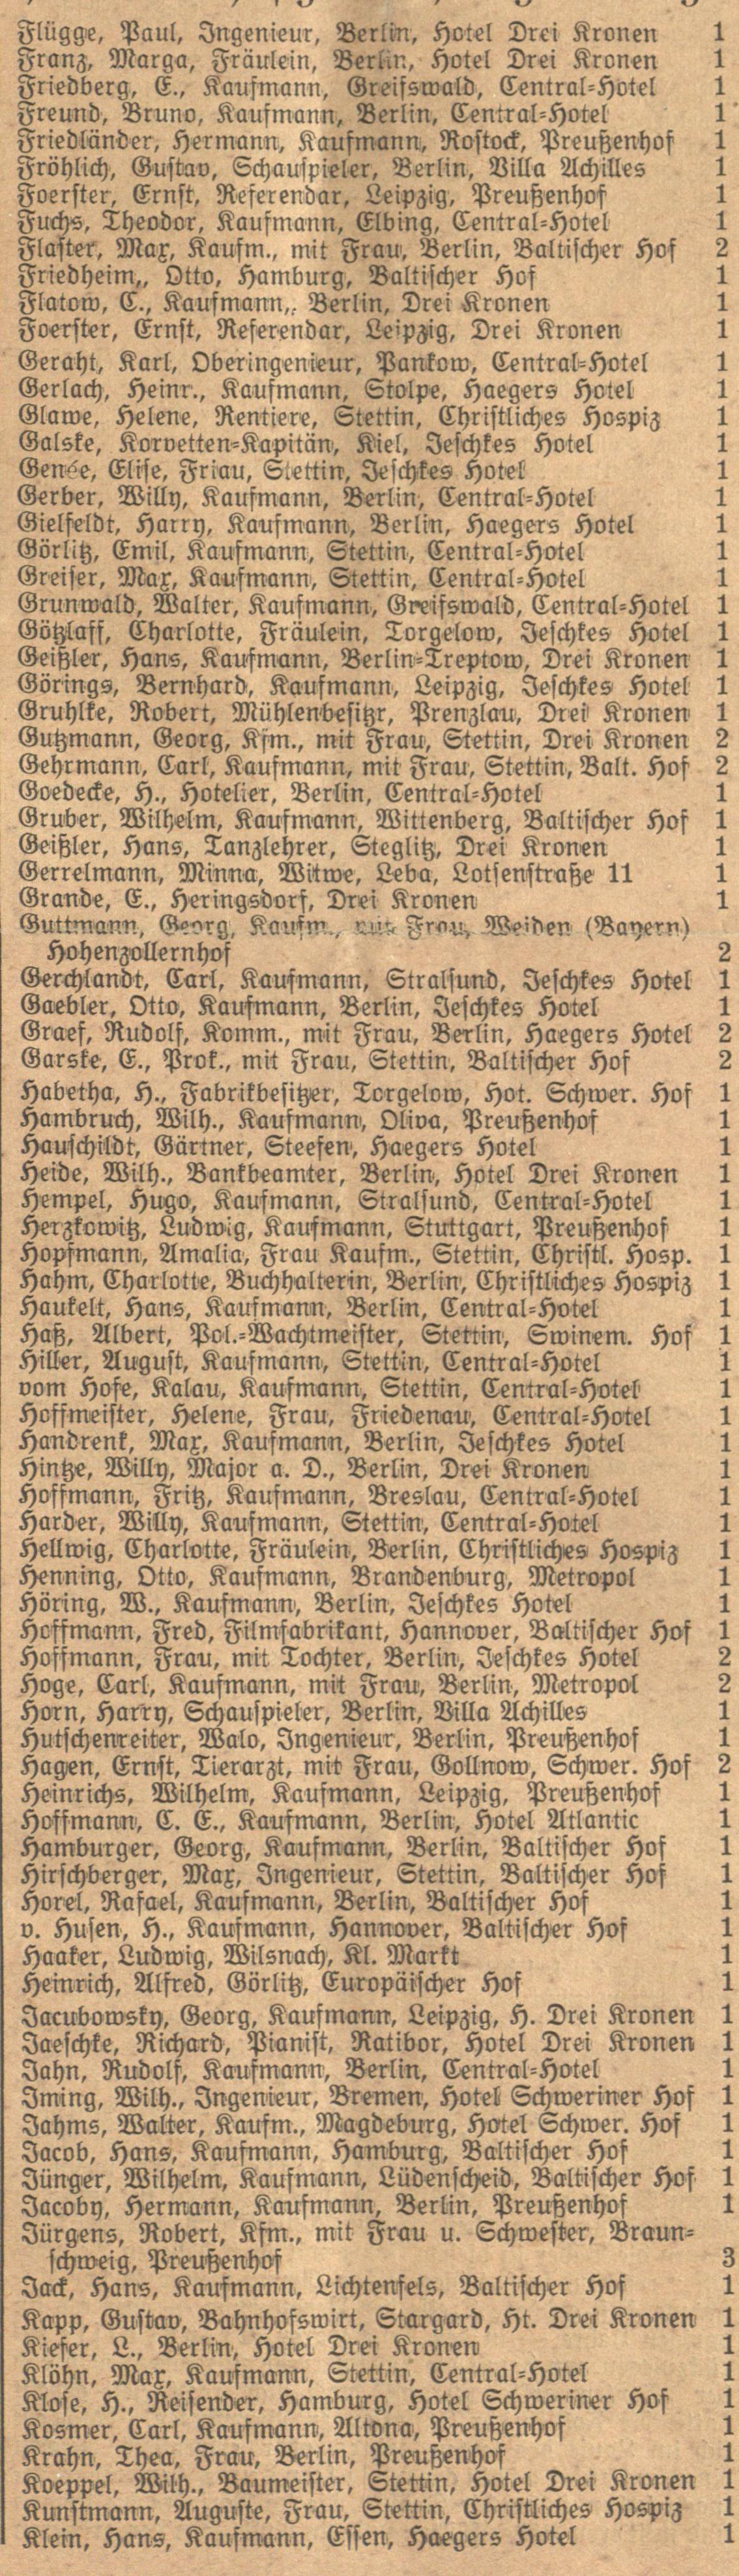Flügge, Paul, Ingenieur, Berlin, Hotel Drei Kronen | 1
Franz, Marga, Fräulein, Berlin, Hotel Drei Kronen | 1
Friedberg, E., Kaufmann, Greifswald, Central=Hotel | 1
Freund, Bruno, Kaufmann, Berlin, Central=Hotel | 1
Friedländer, Hermann, Kaufmann, Rostock, Preußenhof | 1
Fröhlich, Gustav, Schauspieler, Berlin, Villa Achilles | 1
Foerster, Ernst, Referendar, Leipzig, Preußenhof | 1
Fuchs, Theodor, Kaufmann, Elbing, Central=Hotel | 1
Flaster, Max, Kaufm., mit Frau, Berlin, Baltischer Hof | 2
Friedheim,, Otto, Hamburg, Baltischer Hof | 1
Flatow, C., Kaufmann,, Berlin, Drei Kronen | 1
Foerster, Ernst, Referendar, Leipzig, Drei Kronen | 1
Geraht, Karl, Oberingenieur, Pankow, Central=Hotel | 1
Gerlach, Heinr., Kaufmann, Stolpe, Haegers Hotel | 1
Glawe, Helene, Rentiere, Stettin, Christliches Hospiz | 1
Galske, Korvetten=Kapitän, Kiel, Jeschkes Hotel | 1
Genée, Elise, Friau, Stettin, Jeschkes Hotel | 1
Gerber, Willy, Kaufmann, Berlin, Central=Hotel | 1
Gielfeldt, Harry, Kaufmann, Berlin, Haegers Hotel | 1
Görlitz, Emil, Kaufmann, Stettin, Central=Hotel | 1
Greiser, Max, Kaufmann, Stettin, Central=Hotel | 1
Grunwald, Walter, Kaufmann, Greifswald, Central=Hotel | 1
Götzlaff, Charlotte, Fräulein, Torgelow, Jeschkes Hotel | 1
Geißler, Hans, Kaufmann, Berlin=Treptow, Drei Kronen | 1
Görings, Bernhard, Kaufmann, Leipzig, Jeschkes Hotel | 1
Gruhlke, Robert, Mühlenbesitzr, Prenzlau, Drei Kronen | 1
Gutzmann, Georg, Kfm., mit Frau, Stettin, Drei Kronen | 2
Gehrmann, Carl, Kaufmann, mit Frau, Stettin, Balt. Hof | 2
Goedecke, H., Hotelier, Berlin, Central=Hotel | 1
Gruber, Wilhelm, Kaufmann, Wittenberg, Baltischer Hof | 1
Geißler, Hans, Tanzlehrer, Steglitz, Drei Kronen | 1
Gerrelmann, Minna, Witwe, Leba, Lotsenstraße 11 | 1
Grande, E., Heringsdorf, Drei Kronen | 1
Guttmann, Georg, Kaufm., mit Frau, Weiden (Bayern),
Hohenzollernhof | 2
Gerchlandt, Carl, Kaufmann, Stralsund, Jeschkes Hotel | 1
Gaebler, Otto, Kaufmann, Berlin, Jesckes Hotel | 1
Graef, Rudolf, Komm., mit Frau, Berlin, Haegers Hotel | 2
Garske, E., Prof., mit Frau, Stettin, Baltischer Hof | 2
Habetha, H., Fabrikbesitzer, Torgelow, Hot. Schwer. Hof | 1
Hambruch, Wilh., Kaufmann, Oliva, Preußenhof | 1
Hauschildt, Gärtner, Steefen, Haegers Hotel | 1
Heide, Wilh., Bankbeamter, Berlin, Hotel Drei Kronen | 1
Hempel, Hugo, Kaufmann, Stralsund, Central=Hotel | 1
Herzkowitz, Ludwig, Kaufmann, Stuttgart, Preußenhof | 1
Hopfmann, Amalia, Frau Kaufm., Stettin, Christl. Hosp. | 1
Hahm, Charlotte, Buchhalterin, Berlin, Christliches Hospiz | 1
Haukelt, Hans, Kaufmann, Berlin, Central=Hotel | 1
Haß, Albert, Pol.=Wachtmeister, Stettin, Swinem. Hof | 1
Hiller, August, Kaufmann, Stettin, Central=Hotel | 1
vom Hofe, Kalau, Kaufmann, Stettin, Central=Hotel | 1
Hoffmeister, Helene, Frau, Friedenau, Central=Hotel | 1
Handrenk, Max, Kaufmann, Berlin, Jeschkes Hotel | 1
Hintze, Willy, Major a. D., Berlin, Drei Kronen | 1
Hoffmann, Fritz, Kaufmann, Breslau, Central=Hotel | 1
Harder, Willy, Kaufmann, Stettin, Central=Hotel | 1
Hellwig, Charlotte, Fräulein, Berlin, Christliches Hospiz | 1
Hennig, Otto, Kaufmann, Brandenburg, Metropol | 1
Höring, W., Kaufmann, Berlin, Jeschkes Hotel | 1
Hoffmann, Fred, Filmfabrikant, Hannover, Baltischer Hof | 1
Hoffmann, Frau, mit Tocter, Berlin, Jeschkes Hotel | 2
Hoge, Carl, Kaufmann, mit Frau, Berlin, Metropol | 2
Horn, Harry, Schauspieler, Berlin, Villa Achiles | 1
Hutschenreiter, Walo, Ingenieur, Berlin, Preußenhof | 1
Hagen, Ernst, Tierarzt, mit Frau, Gollnow, Schwer. Hof | 2
Heinrichs, Wilhelm, Kaufmann, Leipzig, Preußenhof | 1
Hoffmann, C. E., Kaufmann, Berlin, Hotel Atlantic | 1
Hamburger, Georg, Kaufmann, Berlin, Baltischer Hof | 1
Hirschberger, Max, Ingenieur, Stettin, Baltischer Hof | 1
Horel, Rafael, Kaufmann, Berlin, Baltischer Hof | 1
v. Husen, H., Kaufmann, Hannover, Baltischer Hof | 1
Haaker, Ludwig, Wilsnach, Kl. Markt | 1
Heinrich, Alfred, Görlitz, Europäischer Hof | 1
Jacubowsky, Georg, Kaufmann, Leipzig, H. Drei Kronen | 1
Jaeschke, Richard, Pianist, Ratibor, Hotel Drei Kronen | 1
Jahn, Rudolf, Kaufmann, Berlin, Central=Hotel | 1
Iming, Wilh., Ingenieur, Bremen, Hotel Schweriner Hof | 1
Jahms, Walter, Kaufm., Magdeburg, Hotel Schwer. Hof | 1
Jacob, Hans, Kaufmann, Hamburg, Baltischer Hof | 1
Jünger, Wilhelm, Kaufmann, Lüdenscheid, Baltischer Hof | 1
Jacoby, Hermann, Kaufmann, Berlin, Preußenhof | 1
Jürgens, Robert, Kfm., mit Frau u. Schwester, Braun=
schweig, Preußenhof | 3
Jack, Hans, Kaufmann, Lichtenfels, Baltischer Hof | 1
Kapp, Gustav, Bahnhofswirt, Stargard, Ht. Drei Kronen | 1
Keiser, L., Berlin, Hotel Drei Kronen | 1
Klöhn, Max, Kaufmann, Stettin, Central=Hotel | 1
Klose, H., Reisender, Hamburg, Hotel Schweriner Hof | 1
Kosmer, Carl, Kaufmann, Altona, Preußenhof | 1
Krahn, Thea, Frau, Berlin, Preußenhof | 1
Koeppel, Wilh., Baumeister, Stettin, Hotel Drei Kronen | 1
Kunstmann, Auguste, Frau, Stettin, Christliches Hospiz | 1
Klein, Hans, Kaufmann, Essen, Haegers Hotel | 1
